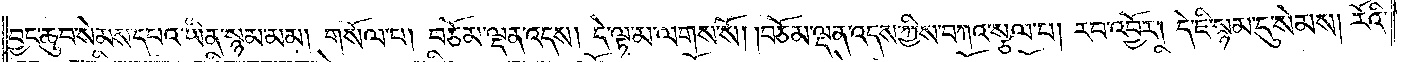བྱང་ཆུབ་སེམས་དཔའ་ཡིན་སྙམ་མམ། གསོལ་པ། བཅོམ་ལྡན་འདས། དེ་ལྟ་མ་ལགས་སོ། །བཅོམ་ལྡན་འདས་ཀྱིས་བཀའ་སྩལ་པ། རབ་འབྱོར། དེ་ཇི་སྙམ་དུ་སེམས། རོའི་
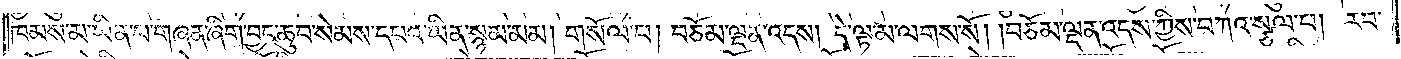ཁམས་མ་ཡིན་པ་གཞན་ཞིག་བྱང་ཆུབ་སེམས་དཔའ་ཡིན་སྙམ་མམ། གསོལ་པ། བཅོམ་ལྡན་འདས། དེ་ལྟ་མ་ལགས་སོ། །བཅོམ་ལྡན་འདས་ཀྱིས་བཀའ་སྩལ་པ། རབ་
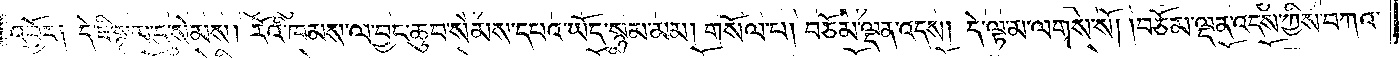འབྱོར༑ དེ་ཇི་སྙམ་དུ་སེམས། རོའི་ཁམས་ལ་བྱང་ཆུབ་སེམས་དཔའ་ཡོད་སྙམ་མམ། གསོལ་པ། བཅོམ་ལྡན་འདས། དེ་ལྟ་མ་ལགས་སོ། །བཅོམ་ལྡན་འདས་ཀྱིས་བཀའ་
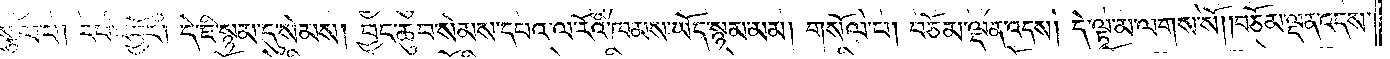སྩལ་པ། རབ་འབྱོར། དེ་ཇི་སྙམ་དུ་སེམས། བྱང་ཆུབ་སེམས་དཔའ་ལ་རོའི་ཁམས་ཡོད་སྙམ་མམ། གསོལ་པ། བཅོམ་ལྡན་འདས། དེ་ལྟ་མ་ལགས་སོ། །བཅོམ་ལྡན་འདས་
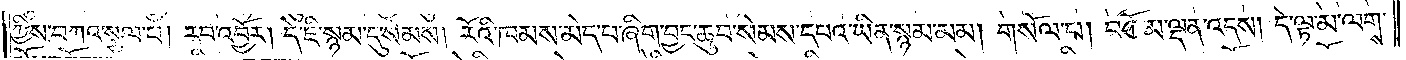ཀྱིས་བཀའ་སྩལ་པ། རབ་འབྱོར། དེ་ཇི་སྙམ་དུ་སེམས། རོའི་ཁམས་མེད་པ་ཞིག་བྱང་ཆུབ་སེམས་དཔའ་ཡིན་སྙམ་མམ། གསོལ་པ། བཅོམ་ལྡན་འདས། དེ་ལྟ་མ་ལགས་
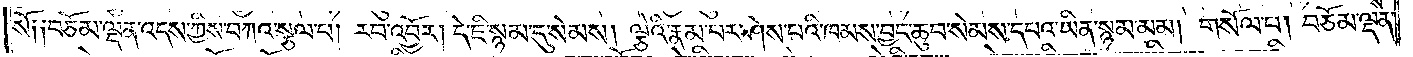སོ༑ ༑བཅོམ་ལྡན་འདས་ཀྱིས་བཀའ་སྩལ་པ། རབ་འབྱོར། དེ་ཇི་སྙམ་དུ་སེམས། ལྕེའི་རྣམ་པར་ཤེས་པའི་ཁམས་བྱང་ཆུབ་སེམས་དཔའ་ཡིན་སྙམ་མམ། གསོལ་པ། བཅོམ་ལྡན་
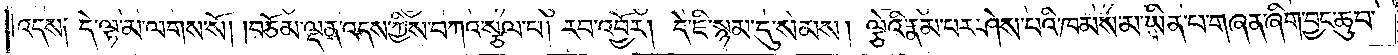འདས༑ དེ་ལྟ་མ་ལགས་སོ། །བཅོམ་ལྡན་འདས་ཀྱིས་བཀའ་སྩལ་པ། རབ་འབྱོར། དེ་ཇི་སྙམ་དུ་སེམས། ལྕེའི་རྣམ་པར་ཤེས་པའི་ཁམས་ཡིན་པ་གཞན་ཞིག་བྱང་ཆུབ་
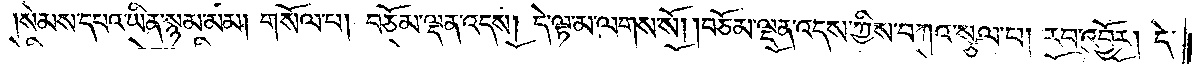སེམས་དཔའ་ཡིན་སྙམ་མམ། གསོལ་པ། བཅོམ་ལྡན་འདས། དེ་ལྟ་མ་ལགས་སོ། །བཅོམ་ལྡན་འདས་ཀྱིས་བཀའ་སྩལ་པ། རབ་འབྱོར། དེ་
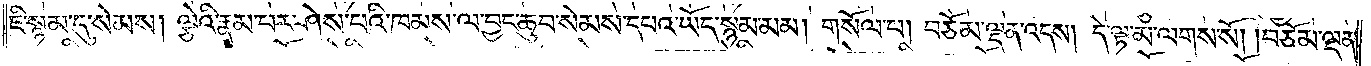ཇི་སྙམ་དུ་སེམས། ལྕེའི་རྣམ་པར་ཤེས་པའི་ཁམས་ལ་བྱང་ཆུབ་སེམས་དཔའ་ཡོད་སྙམ་མམ། གསོལ་པ། བཅོམ་ལྡན་འདས། དེ་ལྟ་མ་ལགས་སོ། །བཅོམ་ལྡན་
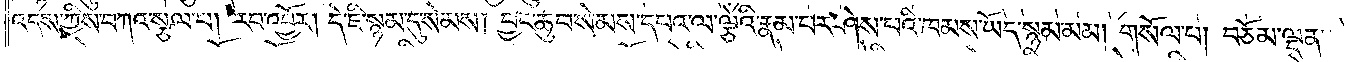འདས་ཀྱིས་བཀའ་སྩལ་པ། རབ་འབྱོར། དེ་ཇི་སྙམ་དུ་སེམས། བྱང་ཆུབ་སེམས་དཔའ་ལ་ལྕེའི་རྣམ་པར་ཤེས་པའི་ཁམས་ཡོད་སྙམ་མམ། གསོལ་པ། བཅོམ་ལྡན་
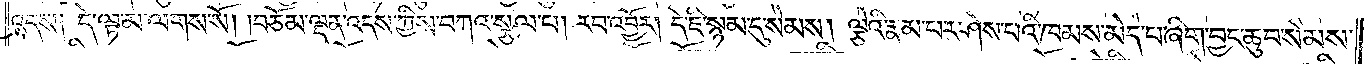འདས༑ དེ་ལྟ་མ་ལགས་སོ། །བཅོམ་ལྡན་འདས་ཀྱིས་བཀའ་སྩལ་པ། རབ་འབྱོར། དེ་ཇི་སྙམ་དུ་སེམས། ལྕེའི་རྣམ་པར་ཤེས་པའི་ཁམས་མེད་པ་ཞིག་བྱང་ཆུབ་སེམས་
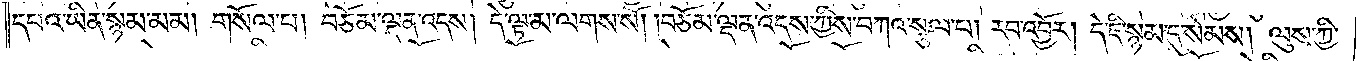དཔའ་ཡིན་སྙམ་མམ། གསོལ་པ། བཅོམ་ལྡན་འདས། དེ་ལྟ་མ་ལགས་སོ། །བཅོམ་ལྡན་འདས་ཀྱིས་བཀའ་སྩལ་པ། རབ་འབྱོར། དེ་ཇི་སྙམ་དུ་སེམས། ལུས་ཀྱི་
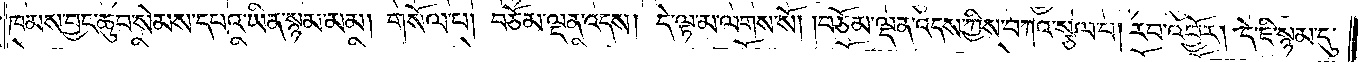ཁམས་བྱང་ཆུབ་སེམས་དཔའ་ཡིན་སྙམ་མམ། གསོལ་པ། བཅོམ་ལྡན་འདས། དེ་ལྟ་མ་ལགས་སོ། །བཅོམ་ལྡན་འདས་ཀྱིས་བཀའ་སྩལ་པ། རབ་འབྱོར། དེ་ཇི་སྙམ་དུ་
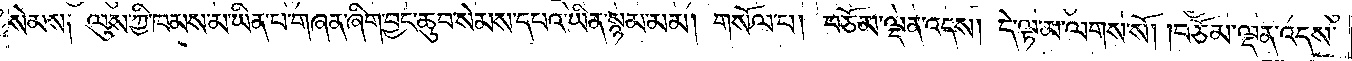སེམས༑ ལུས་ཀྱི་ཁམས་མ་ཡིན་པ་གཞན་ཞིག་བྱང་ཆུབ་སེམས་དཔའ་ཡིན་སྙམ་མམ། གསོལ་པ། བཅོམ་ལྡན་འདས། དེ་ལྟ་མ་ལགས་སོ། །བཅོམ་ལྡན་འདས་
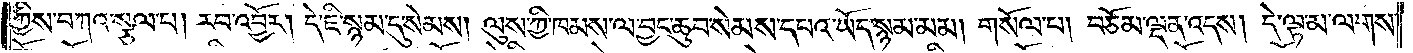ཀྱིས་བཀའ་སྩལ་པ། རབ་འབྱོར། དེ་ཇི་སྙམ་དུ་སེམས། ལུས་ཀྱི་ཁམས་ལ་བྱང་ཆུབ་སེམས་དཔའ་ཡོད་སྙམ་མམ། གསོལ་པ། བཅོམ་ལྡན་འདས། དེ་ལྟ་མ་ལགས་
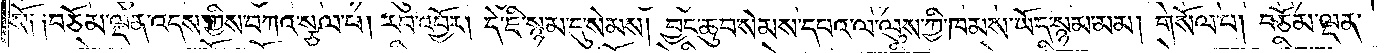སོ༑ ༑བཅོམ་ལྡན་འདས་ཀྱིས་བཀའ་སྩལ་པ། རབ་འབྱོར། དེ་ཇི་སྙམ་དུ་སེམས། བྱང་ཆུབ་སེམས་དཔའ་ལ་ལུས་ཀྱི་ཁམས་ཡོད་སྙམ་མམ། གསོལ་པ། བཅོམ་ལྡན་
